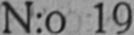N:o 19
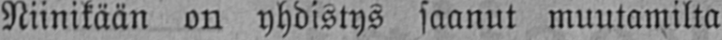Niinikään on yhdistys saanut muutamilta
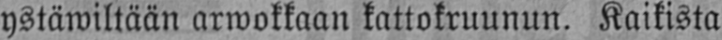ystäwiltään arwokkaan kattokruunun. Kaikista
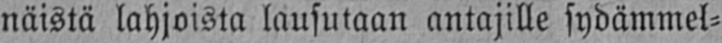näistä lahjoista lausutaan antajille sydämmel-
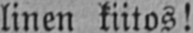linen kiitos!
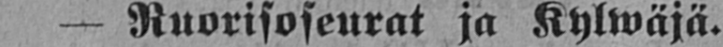— Nuorisoseurat ja Kylwäjä.
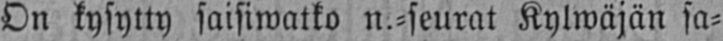On kysytty saisiwatko n.-seurat Kylwäjän sa-
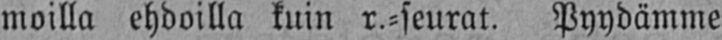moilla ehdoilla kuin r.-seurat. Pyydämme
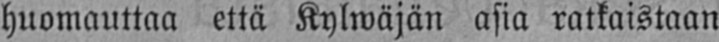huomauttaa että Kylwäjän asia ratkaistaan
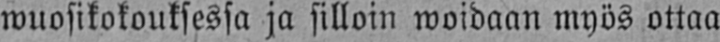wuosikokouksessa ja silloin woidaan myös ottaa
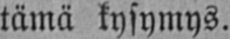tämä kysymys.
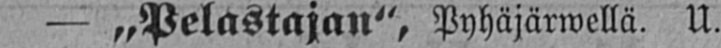— „Pelastajan", Pyhäjärwellä. U.
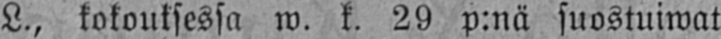L., kokouksessa w. k. 29 p:nä suostuiwat
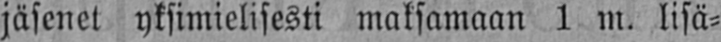jäsenet yksimielisesti maksamaan 1 m. lisä-
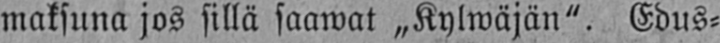maksuna jos sillä saawat „Kylwäjän". Edus-
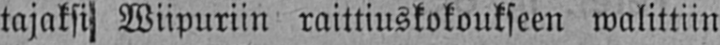tajaksi Wiipuriin raittiuskokoukseen walittiin
